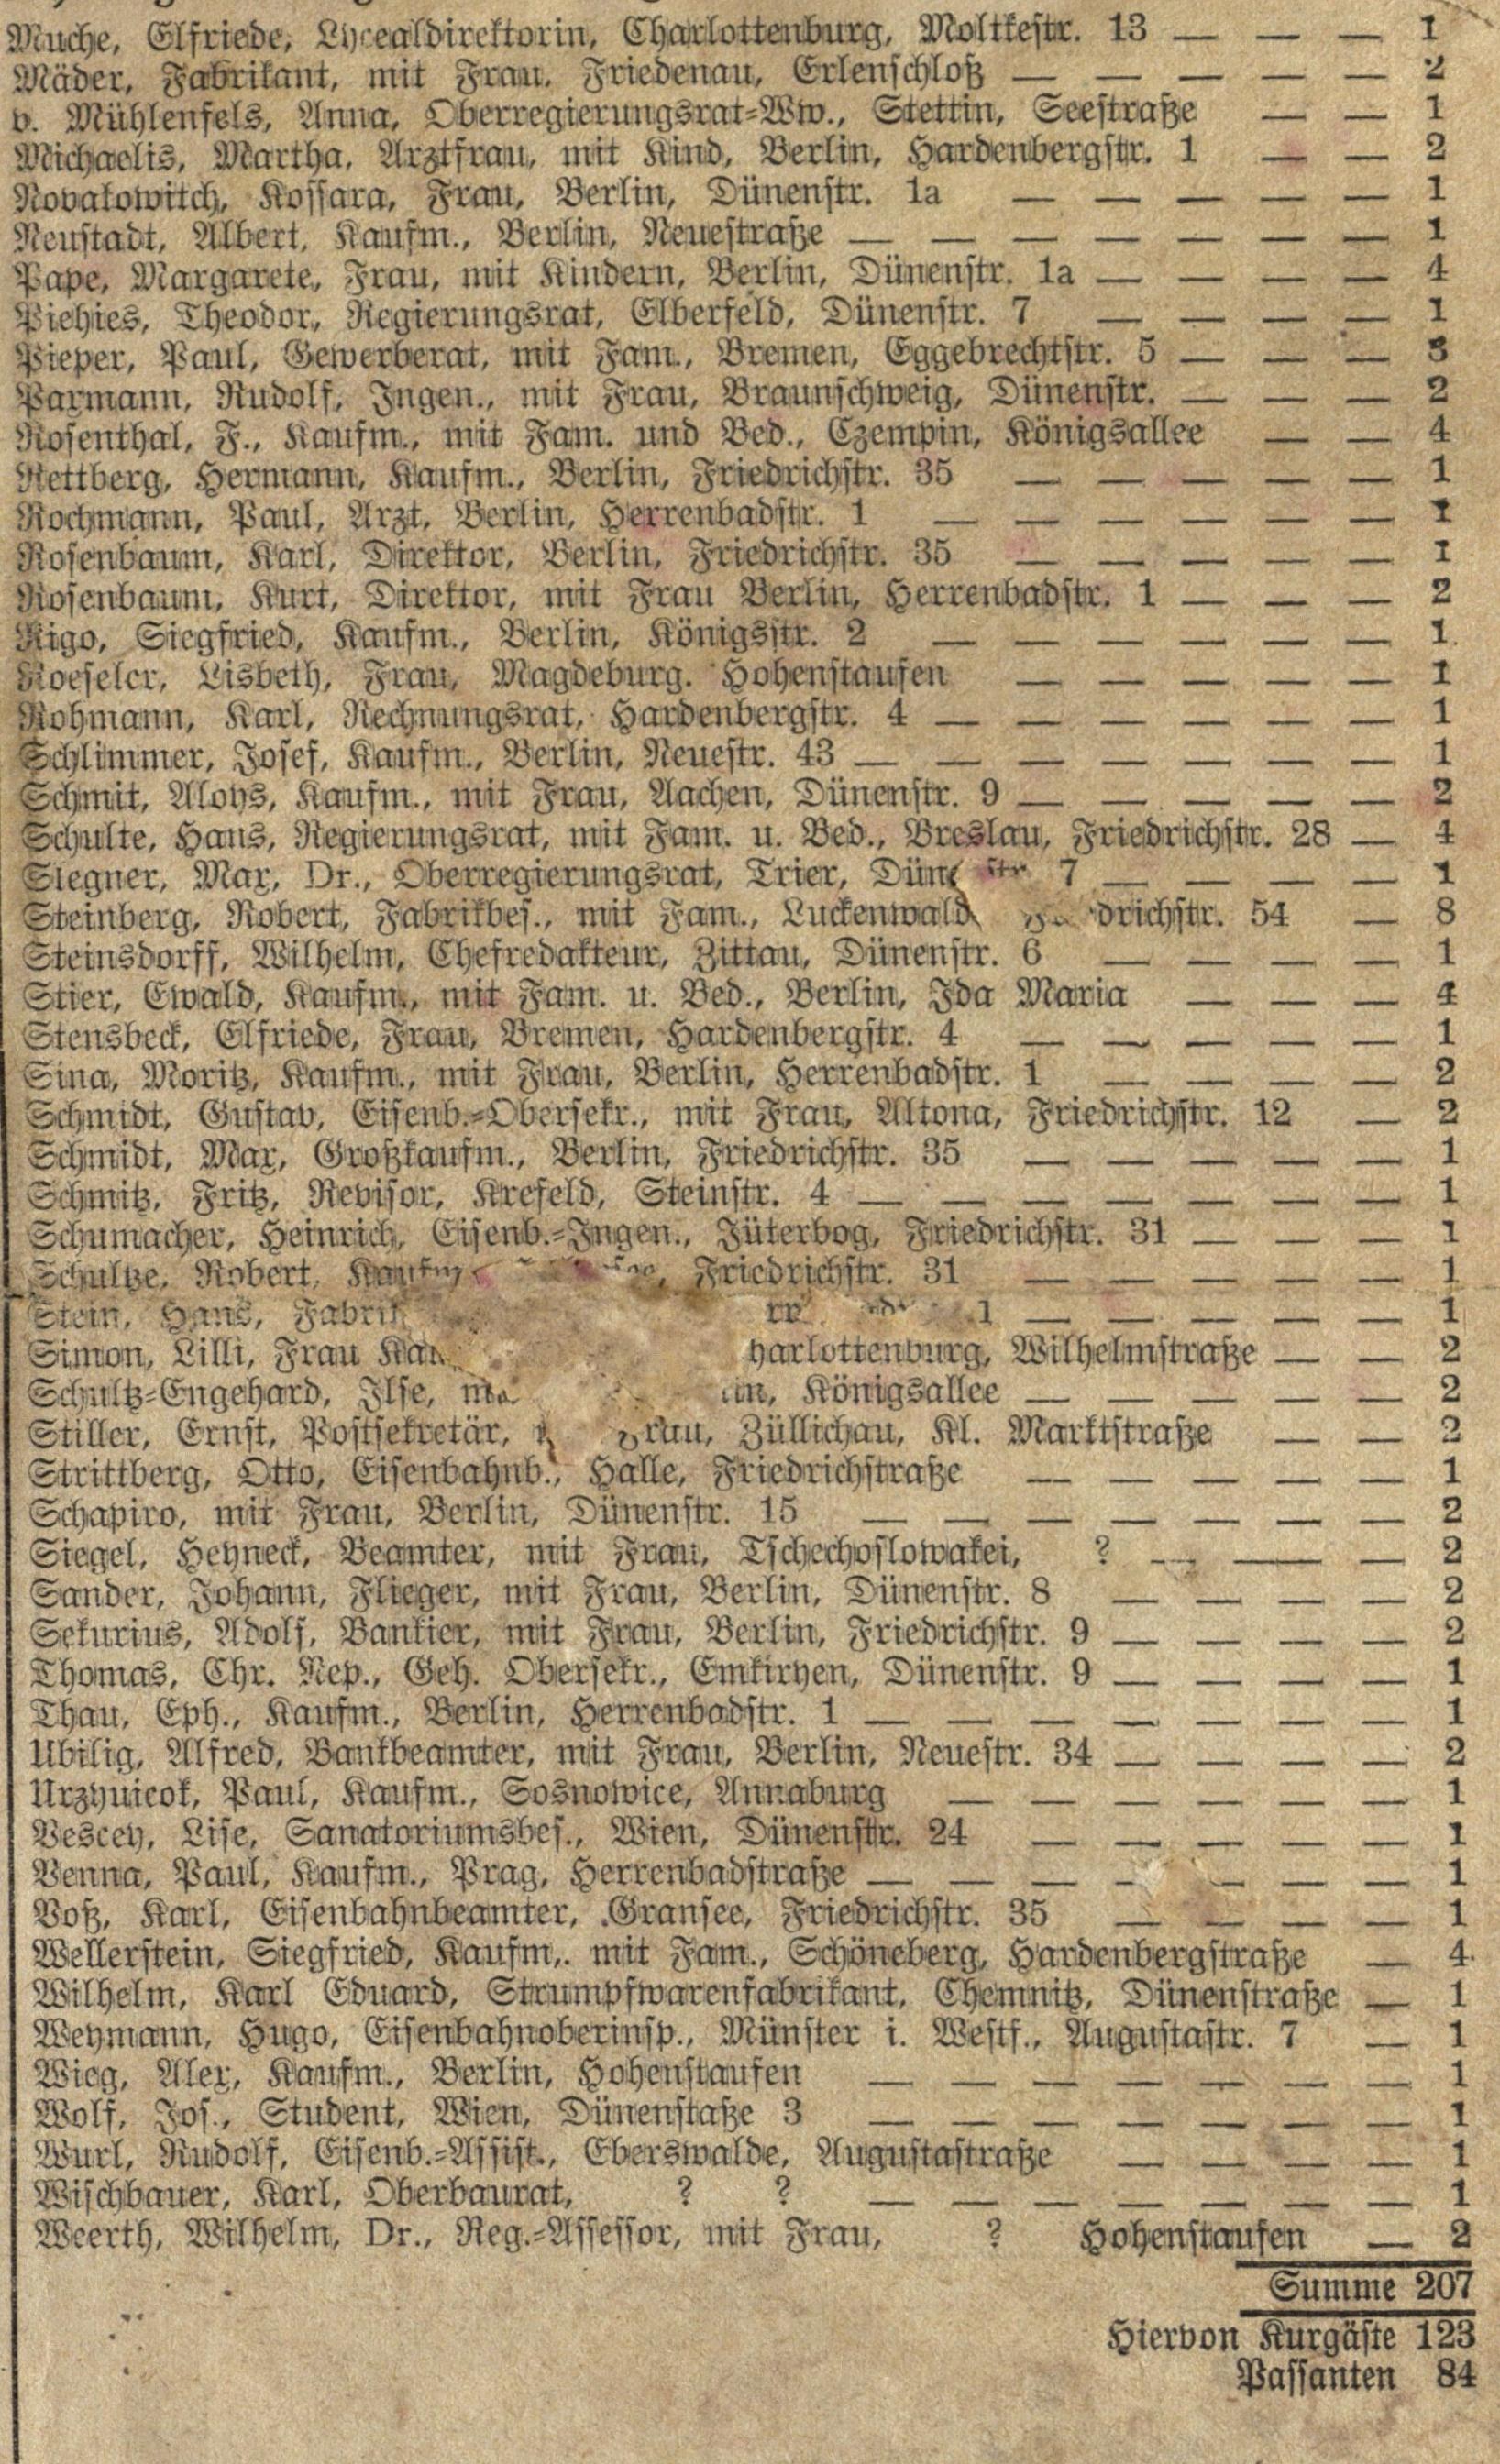Muche, Elfriede, Lycealdirektorin, Charlottenburg, Moltkestr. 13 | 1
Mäder, Fabrikant, mit Frau, Friedenau, Erlenschloß | 2
v. Mühlenfels, Anna, Oberregierungsrat=Ww., Stettin, Seestraße | 1
Michaelis, Martha, Arztfrau, mit Kind, Berlin, Hardenbergstr. 1 | 2
Novakowitch, Kossara, Frau, Berlin, Dünenstr. 1a | 1
Neustadt, Albert, Kaufm., Berlin, Neuestraße | 1
Pape, Margarete, Frau, mit Kindern, Berlin, Dünenstr. 1a | 4
Piehies, Theodor, Regierungsrat, Elberfeld, Dünenstr. 7 | 1
Pieper, Paul, Gewerberat, mit Fam., Bremen, Eggebrechtstr. 5 | 5
Paxmann, Rudolf, Ingen., mit Frau, Braunschweig, Dünenstr. | 2
Rosenthal, F., Kaufm., mit Fam. und Bed., Czempin, Königsallee | 4
Rettberg, Hermann, Kaufm., Berlin, Friedrichstr. 35 | 1
Rochmann, Paul, Arzt, Berlin, Herrenbadstr. 1 | 1
Rosenbaum, Karl, Direktor, Berlin, Friedrichstr. 35 | 1
Rosenbaum, Kurt, Direktor, mit Frau Berlin, Herrenbadstr. 1 | 2
Rigo, Siegfried, Kaufm., Berlin, Königsstr. 2 | 1
Roeseler, Lisbeth, Frau, Magdeburg. Hohenstaufen | 1
Rohmann, Karl, Rechnungsrat, Hardenbergstr. 4 | 1
Schlimmer, Josef, Kaufm., Berlin, Neuestr. 43 | 1
Schmit, Aloys, Kaufm., mit Frau, Aachen, Dünenstr. 9 | 2
Schulte, Hans, Regierungsrat, mit Fam. u. Bed., Breslau, Friedrichstr. 28 | 4
Slegner, Max, Dr., Oberregierungsrat, Trier, Düne str 7 | 1
Steinberg, Robert, Fabrikbes., mit Fam., Luckenwald F drichstr. 54 | 8
Steinsdorff, Wilhelm, Chefredakteur, Zittau, Dünenstr. 6 | 1
Stier, Ewald, Kaufm., mit Fam. u. Bed., Berlin, Ida Maria | 4
Stensbeck, Elfriede, Frau, Bremen, Hardenbergstr. 4 | 1
Sina, Moritz, Kaufm., mit Frau, Berlin, Herrenbadstr. 1 | 2
Schmidt, Gustav, Eisenb.=Obersekr., mit Frau, Altona, Friedrichstr. 12 | 2
Schmidt, Max, Großkaufm., Berlin, Friedrichstr. 35 | 1
Schmitz, Fritz, Revisor, Krefeld, Steinstr. 4 | 1
Schumacher, Heinrich, Eisenb.=Ingen., Jüterbog, Friedrichstr. 31 | 1
Schulze, Robert, Kaufm see, Friedrichstr. 31 | 1
Stein, Hans, Fabrik rr d 1 | 1
Simon, Lilli, Frau Ka harlottenburg, Wilhelmstraße | 2
Schultz=Engehard, Ilse, m in, Königsallee | 2
Stiller, Ernst, Postsekretär, m Frau, Züllichau, Kl. Marktstraße | 2
Strittberg, Otto, Eisenbahnb., Halle, Friedrichstraße | 1
Schapiro, mit Frau, Berlin, Dünenstr. 15 | 2
Siegel, Hyneck, Beamter, mit Frau, Tschechoslowakei, ? | 2
Sander, Johann, Flieger, mit Frau, Berlin, Dünenstr. 8 | 2
Sekurius, Adolf, Bankier, mit Frau, Berlin, Friedrichstr. 9 | 2
Thomas, Chr. Nep., Geh. Obersekr., Emkiryen, Dünenstr. 9 | 1
Thau, Eph., Kaufm., Berlin, Herrenbadstr. 1 | 1
Ubilig, Alfred, Bankbeamter, mit Frau, Berlin, Neuestr. 34 | 2
Urzyuieok, Paul, Kaufm., Sosnowice, Annaburg | 1
Vescey, Lise, Sanatoriumsbes., Wien, Dünenstr. 24 | 1
Venna, Paul, Kaufm., Prag, Herrenbadstraße | 1
Voß, Karl, Eisenbahnbeamter, Gransee, Friedrichstr. 35 | 1
Wellerstein, Siegfried, Kaufm., mit Fam., Schöneberg, Hardenbergstraße | 4
Wilhelm, Karl Eduard, Strumpfwarenfabrikant, Chemnitz, Dünenstraße | 1
Weymann, Hugo, Eisenbahnoberinsp., Münster i. Westf., Augustastr. 7 | 1
Wieg, Alex, Kaufm., Berlin, Hohenstaufen | 1
Wolf, Jos., Student, Wien, Dünenstraße 3 | 1
Wurl, Rudolf, Esenb.=Assist., Eberswalde, Augustastraße | 1
Wischbauer, Karl, Oberbaurat, ? ? | 1
Weerth, Wilhelm, Dr., Reg.=Assessor, mit Frau, ? Hohenstaufen | 2
Summe 207
Hiervon Kurgäste 123
Passanten 84
